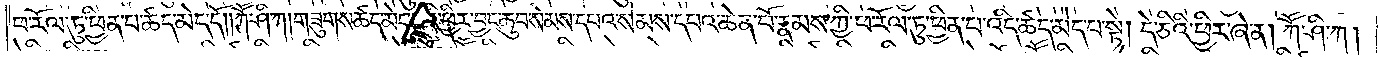ཕ་རོལ་ཏུ་ཕྱིན་པ་ཚད་མེད་དོ། །ཀཽ་ཤི་ཀ། གཟུགས་ཚད་མེད་པའི་ཕྱིར་བྱང་ཆུབ་སེམས་དཔའ་སེམས་དཔའ་ཆེན་པོ་རྣམས་ཀྱི་ཕ་རོལ་ཏུ་ཕྱིན་པ་འདི་ཚད་མེད་པ་སྟེ། དེ་ཅིའི་ཕྱིར་ཞེ་ན། ཀཽ་ཤི་ཀ།
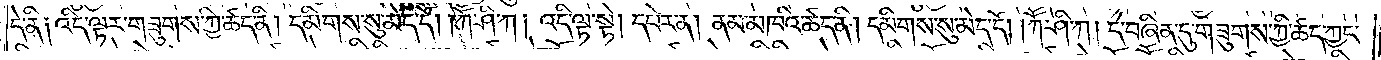དེ་ནི༑ འདི་ལྟར་གཟུགས་ཀྱི་ཚད་ནི། དམིགས་སུ་མེད་དོ། །ཀཽ་ཤི་ཀ། འདི་ལྟ་སྟེ། དཔེར་ན། ནམ་མཁའི་ཚད་ནི། དམིགས་སུ་མེད་དོ། །ཀཽ་ཤི་ཀ། དེ་བཞིན་དུ་གཟུགས་ཀྱི་ཚད་ཀྱང་
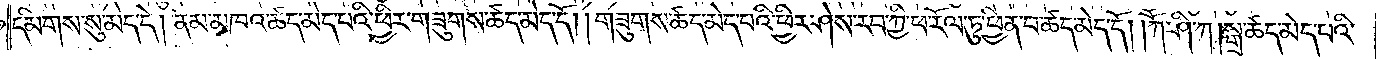དམིགས་སུ་མེད་དེ། ནམ་མཁའ་ཚད་མེད་པའི་ཕྱིར་གཟུགས་ཚད་མེད་དོ། །གཟུགས་ཚད་མེད་པའི་ཕྱིར་ཤེས་རབ་ཀྱི་ཕ་རོལ་ཏུ་ཕྱིན་པ་ཚད་མེད་དོ། །ཀཽ་ཤི་ཀ། སྒྲ་ཚད་མེད་པའི་
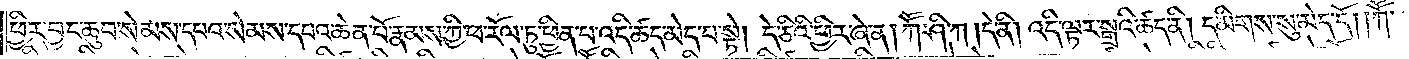ཕྱིར་བྱང་ཆུབ་སེམས་དཔའ་སེམས་དཔའ་ཆེན་པོ་རྣམས་ཀྱི་ཕ་རོལ་ཏུ་ཕྱིན་པ་འདི་ཚད་མེད་པ་སྟེ། དེ་ཅིའི་ཕྱིར་ཞེ་ན། ཀཽ་ཤི་ཀ །དེ་ནི། འདི་ལྟར་སྒྲའི་ཚད་ནི། དམིགས་སུ་མེད་དོ། །ཀཽ་
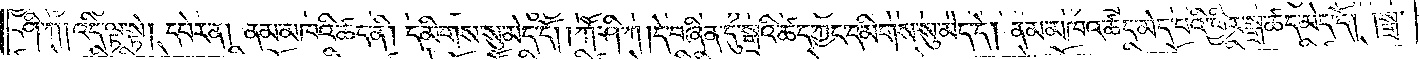ཤི་ཀ། འདི་ལྟ་སྟེ། དཔེར་ན། ནམ་མཁའི་ཚད་ནི། དམིགས་སུ་མེད་དོ། །ཀཽ་ཤི་ཀ། དེ་བཞིན་དུ་སྒྲའི་ཚད་ཀྱང་དམིགས་སུ་མེད་དེ། ནམ་མཁའ་ཚད་མེད་པའི་ཕྱིར་སྒྲ་ཚད་མེད་དོ། །སྒྲ་
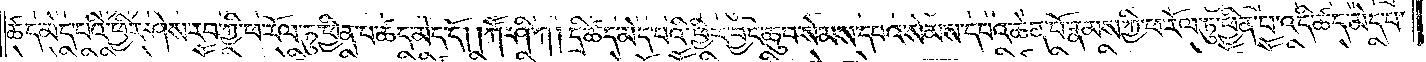ཚད་མེད་པའི་ཕྱིར་ཤེས་རབ་ཀྱི་ཕ་རོལ་ཏུ་ཕྱིན་པ་ཚད་མེད་དོ། །ཀཽ་ཤི་ཀ། དྲི་ཚད་མེད་པའི་ཕྱིར་བྱང་ཆུབ་སེམས་དཔའ་སེམས་དཔའ་ཆེན་པོ་རྣམས་ཀྱི་ཕ་རོལ་ཏུ་ཕྱིན་པ་འདི་ཚད་མེད་པ་
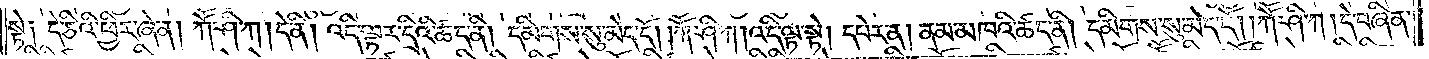སྟེ༑ དེ་ཅིའི་ཕྱིར་ཞེ་ན། ཀཽ་ཤི་ཀ །དེ་ནི། འདི་ལྟར་དྲིའི་ཚད་ནི། དམིགས་སུ་མེད་དོ། །ཀཽ་ཤི་ཀ། འདི་ལྟ་སྟེ། དཔེར་ན། ནམ་མཁའི་ཚད་ནི། དམིགས་སུ་མེད་དོ། །ཀཽ་ཤི་ཀ། དེ་བཞིན་
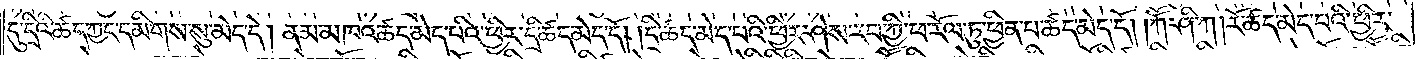དུ་དྲིའི་ཚད་ཀྱང་དམིགས་སུ་མེད་དེ། ནམ་མཁའ་ཚད་མེད་པའི་ཕྱིར་དྲི་ཚད་མེད་དོ། དྲི་ཚད་མེད་པའི་ཕྱིར་ཤེས་རབ་ཀྱི་ཕ་རོལ་ཏུ་ཕྱིན་པ་ཚད་མེད་དོ། །ཀཽ་ཤི་ཀ། རོ་ཚད་མེད་པའི་ཕྱིར་
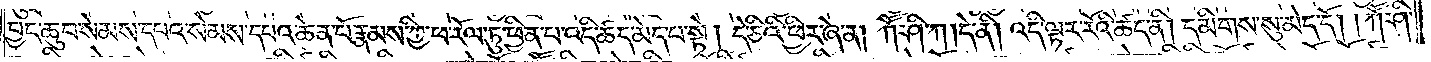བྱང་ཆུབ་སེམས་དཔའ་སེམས་དཔའ་ཆེན་པོ་རྣམས་ཀྱི་ཕ་རོལ་ཏུ་ཕྱིན་པ་འདི་ཚད་མེད་པ་སྟེ། དེ་ཅིའི་ཕྱིར་ཞེ་ན། ཀཽ་ཤི་ཀ། དེ་ནི། འདི་ལྟར་རོའི་ཚད་ནི། དམིགས་སུ་མེད་དོ། །ཀཽ་ཤི་
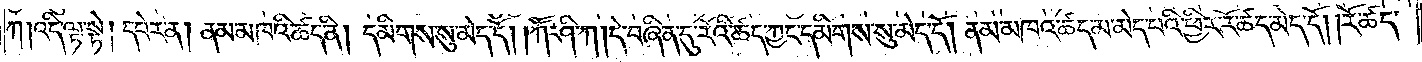ཀ །འདི་ལྟ་སྟེ། དཔེར་ན། ནམ་མཁའི་ཚད་ནི། དམིགས་སུ་མེད་དོ། །ཀཽ་ཤི་ཀ། དེ་བཞིན་དུ་རོའི་ཚད་ཀྱང་དམིགས་སུ་མེད་དོ། ནམ་མཁའ་ཚད་མ་མེད་པའི་ཕྱིར་རོ་ཚད་མེད་དོ། །རོ་ཚད་
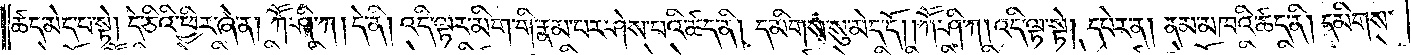ཚད་མེད་པ་སྟེ། དེ་ཅིའི་ཕྱིར་ཞེ་ན། ཀཽ་ཤི་ཀ། དེ་ནི། འདི་ལྟར་མིག་གི་རྣམ་པར་ཤེས་པའི་ཚད་ནི། དམིགས་སུ་མེད་དོ། །ཀཽ་ཤི་ཀ། འདི་ལྟ་སྟེ། དཔེར་ན། ནམ་མཁའི་ཚད་ནི། དམིགས་
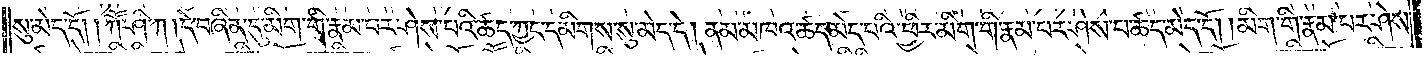སུ་མེད་དོ། །ཀཽ་ཤི་ཀ། དེ་བཞིན་དུ་མིག་གི་རྣམ་པར་ཤེས་པའི་ཚད་ཀྱང་དམིགས་སུ་མེད་དེ། ནམ་མཁའ་ཚད་མེད་པའི་ཕྱིར་མིག་གི་རྣམ་པར་ཤེས་པ་ཚད་མེད་དོ། །མིག་གི་རྣམ་པར་ཤེས་
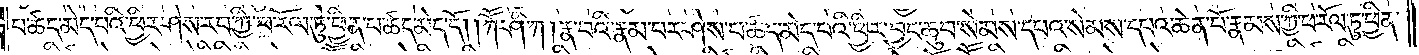པ་ཚད་མེད་པའི་ཕྱིར་ཤེས་རབ་ཀྱི་ཕ་རོལ་ཏུ་ཕྱིན་པ་ཚད་མེད་དོ། །ཀཽ་ཤི་ཀ། རྣ་བའི་རྣམ་པར་ཤེས་པ་ཚད་མེད་པའི་ཕྱིར་བྱང་ཆུབ་སེམས་དཔའ་སེམས་དཔའ་ཆེན་པོ་རྣམས་ཀྱི་ཕ་རོལ་ཏུ་ཕྱིན་
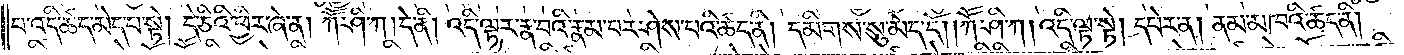པ་འདི་ཚད་མེད་པ་སྟེ། དེ་ཅིའི་ཕྱིར་ཞེ་ན། ཀཽ་ཤི་ཀ། དེ་ནི། འདི་ལྟར་རྣ་བའི་རྣམ་པར་ཤེས་པའི་ཚད་ནི། དམིགས་སུ་མེད་དོ། །ཀཽ་ཤི་ཀ། འདི་ལྟ་སྟེ། དཔེར་ན། ནམ་མཁའི་ཚད་ནི།
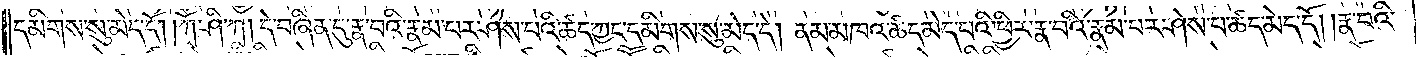དམིགས་སུ་མེད་དོ། །ཀཽ་ཤི་ཀ། དེ་བཞིན་དུ་རྣ་བའི་རྣམ་པར་ཤེས་པའི་ཚད་ཀྱང་དམིགས་སུ་མེད་དེ། ནམ་མཁའ་ཚད་མེད་པའི་ཕྱིར་རྣ་བའི་རྣམ་པར་ཤེས་པ་ཚད་མེད་དོ། །རྣ་བའི་
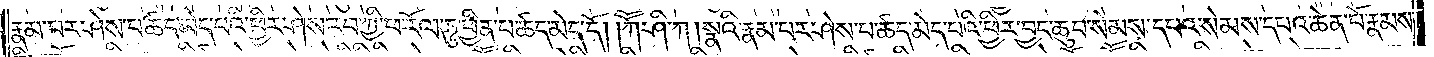རྣམ་པར་ཤེས་པ་ཚད་མེད་པའི་ཕྱིར་ཤེས་རབ་ཀྱི་ཕ་རོལ་ཏུ་ཕྱིན་པ་ཚད་མེད་དོ། །ཀཽ་ཤི་ཀ །སྣའི་རྣམ་པར་ཤེས་པ་ཚད་མེད་པའི་ཕྱིར་བྱང་ཆུབ་སེམས་དཔའ་སེམས་དཔའ་ཆེན་པོ་རྣམས་
